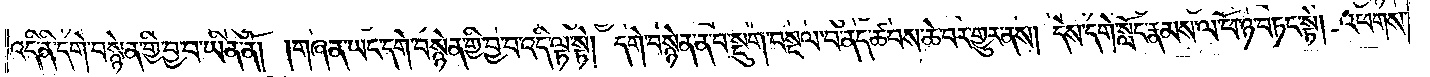འདི་ནི་དགེ་བསྙེན་གྱི་བྱ་བ་ཡིན་ནོ། །གཞན་ཡང་དགེ་བསྙེན་གྱི་བྱ་བ་འདི་ལྟ་སྟེ། དགེ་བསྙེན་ན་བ་སྡུག་བསྔལ་བ་ནད་ཚབས་ཆེ་བར་གྱུར་ནས། དེས་དགེ་སློང་རྣམས་ལ་ཕོ་ཉ་བཏང་སྟེ། འཕགས་
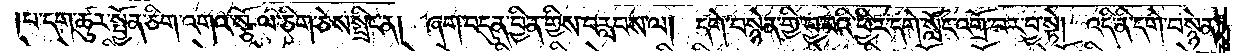པ་དག་ཚུར་སྤྱོན་ཅིག་འགའ་སྩོལ་ཅིག་ཅེས་སྤྲིང་ན། ཞག་བདུན་བྱིན་གྱིས་བརླབས་ལ། དགེ་བསྙེན་གྱི་བྱ་བའི་ཕྱིར་དགེ་སློང་འགྲོ་བར་བྱ་སྟེ། འདི་ནི་དགེ་བསྙེན་
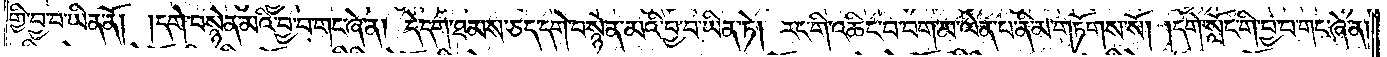གྱི་བྱ་བ་ཡིན་ནོ། །དགེ་བསྙེན་མའི་བྱ་བ་གང་ཞེ་ན། དེ་དག་ཐམས་ཅད་དགེ་བསྙེན་མའི་བྱ་བ་ཡིན་ཏེ། རང་གི་འཆིང་བ་བག་མ་ལེན་པ་ནི་མ་གཏོགས་སོ། །དགེ་སློང་གི་བྱ་བ་གང་ཞེ་ན།
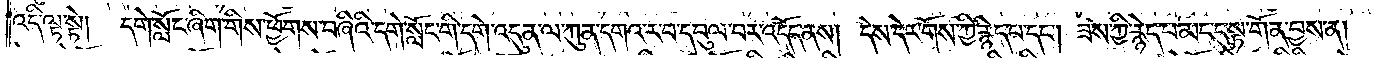འདི་ལྟ་སྟེ། དགེ་སློང་ཞིག་གིས་ཕྱོགས་བཞིའི་དགེ་སློང་གི་དགེ་འདུན་ལ་ཀུན་དགའ་ར་བ་དབུལ་བར་འདོད་ནས། དེས་དེར་གོས་ཀྱི་རྙེད་པ་དང༌། ཟས་ཀྱི་རྙེད་པ་མང་དུ་སྟ་གོན་བྱས་ན།
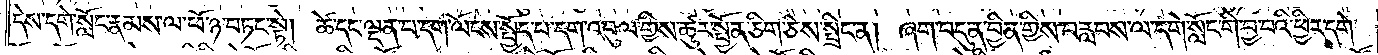དེས་དགེ་སློང་རྣམས་ལ་ཕོ་ཉ་བཏང་སྟེ། ཚེ་དང་ལྡན་པ་དག་ལོངས་སྤྱོད་པ་དག་འབུལ་གྱིས་ཚུར་སྤྱོན་ཅིག་ཅེས་སྤྲིང་ན། ཞག་བདུན་བྱིན་གྱིས་བརླབས་ལ་དགེ་སློང་གི་བྱ་བའི་ཕྱིར་དགེ་
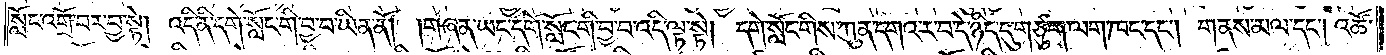སློང་འགྲོ་བར་བྱ་སྟེ། འདི་ནི་དགེ་སློང་གི་བྱ་བ་ཡིན་ནོ། །གཞན་ཡང་དགེ་སློང་གི་བྱ་བ་འདི་ལྟ་སྟེ། དགེ་སློང་གིས་ཀུན་དགའ་ར་བ་དེ་ཉིད་དུ་གཙུག་ལག་ཁང་དང༌། གནས་མལ་དང༌། འཚོ་
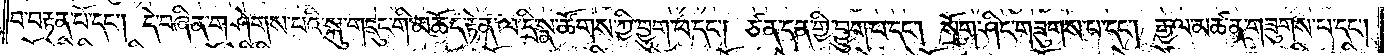བ་བརྟན་པོ་དང༌། དེ་བཞིན་གཤེགས་པའི་སྐུ་གདུང་གི་མཆོད་རྟེན་ལ་དྲི་སྣ་ཚོགས་ཀྱི་བྱུག་པ་དང༌། ཙན་དན་གྱི་བྱུག་པ་དང༌། སྲོག་ཤིང་གཟུགས་པ་དང༌། རྒྱལ་མཚན་གཟུགས་པ་དང༌།
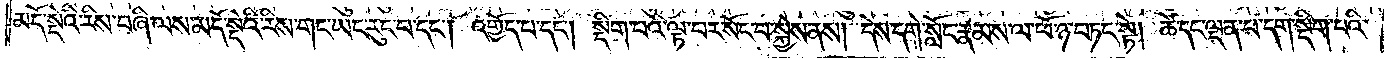མདོ་སྡེའི་རིས་བཞི་ལས་མདོ་སྡེའི་རིས་གང་ཡང་རུང་བ་དང༌། འགྱོད་པ་དང༌། སྡིག་པའི་ལྟ་བར་སོང་བ་སྐྱེས་ནས། དེས་དགེ་སློང་རྣམས་ལ་ཕོ་ཉ་བཏང་སྟེ། ཚེ་དང་ལྡན་པ་དག་སྡིག་པའི་
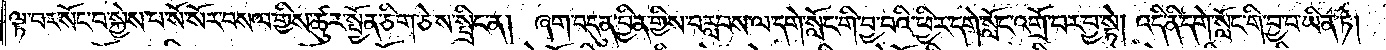ལྟ་བར་སོང་བ་སྐྱེས་པ་སོ་སོར་བསལ་གྱིས་ཚུར་སྤྱོན་ཅིག་ཅེས་སྤྲིང་ན། ཞག་བདུན་བྱིན་གྱིས་བརླབས་ལ་དགེ་སློང་གི་བྱ་བའི་ཕྱིར་དགེ་སློང་འགྲོ་བར་བྱ་སྟེ། འདི་ནི་དགེ་སློང་གི་བྱ་བ་ཡིན་ཏེ།
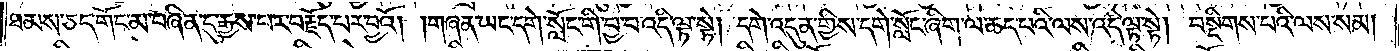ཐམས་ཅད་གོང་མ་བཞིན་དུ་རྒྱས་པར་བརྗོད་པར་བྱའོ། །གཞན་ཡང་དགེ་སློང་གི་བྱ་བ་འདི་ལྟ་སྟེ། དགེ་འདུན་གྱིས་དགེ་སློང་ཞིག་ལ་ཆད་པའི་ལས་འདི་ལྟ་སྟེ། བསྡིགས་པའི་ལས་སམ།
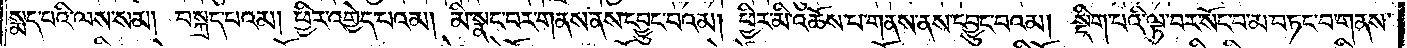སྨད་པའི་ལས་སམ། བསྐྲད་པའམ། ཕྱིར་འགྱེད་པའམ། མི་སྣང་བར་གནས་ནས་དབྱུང་བའམ། ཕྱིར་མི་འཆོས་པ་གནས་ནས་དབྱུང་བའམ། སྡིག་པའི་ལྟ་བར་སོང་བ་མ་བཏང་བ་གནས་
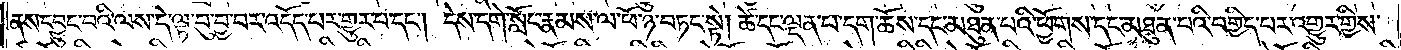ནས་དབྱུང་བའི་ལས་དེ་ལྟ་བུ་བྱ་བར་འདོད་པར་གྱུར་པ་དང༌། དེས་དགེ་སློང་རྣམས་ལ་ཕོ་ཉ་བཏང་སྟེ། ཚེ་དང་ལྡན་པ་དག་ཆོས་དང་མཐུན་པའི་ཕྱོགས་དང་མཐུན་པའི་བགྱིད་པར་འགྱུར་གྱིས་
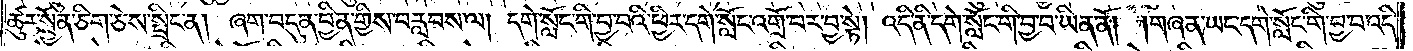ཚུར་སྤྱོན་ཅིག་ཅེས་སྤྲིང་ན། ཞག་བདུན་བྱིན་གྱིས་བརླབས་ལ། དགེ་སློང་གི་བྱ་བའི་ཕྱིར་དགེ་སློང་འགྲོ་བར་བྱ་སྟེ། འདི་ནི་དགེ་སློང་གི་བྱ་བ་ཡིན་ནོ། །གཞན་ཡང་དགེ་སློང་གི་བྱ་བ་འདི་
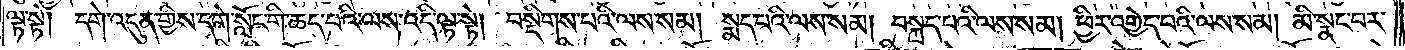ལྟ་སྟེ། དགེ་འདུན་གྱིས་དགེ་སློང་གི་ཆད་པའི་ལས་འདི་ལྟ་སྟེ། བསྡིགས་པའི་ལས་སམ། སྨད་པའི་ལས་སམ། བསྐྲད་པའི་ལས་སམ། ཕྱིར་འགྱེད་པའི་ལས་སམ། མི་སྣང་བར་
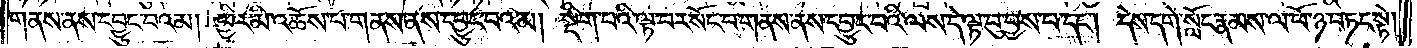གནས་ནས་དབྱུང་བའམ། ཕྱིར་མི་འཆོས་པ་གནས་ནས་དབྱུང་བའམ། སྡིག་པའི་ལྟ་བར་སོང་བ་གནས་ནས་དབྱུང་བའི་ལས་དེ་ལྟ་བུ་བྱས་པ་དང༌། དེས་དགེ་སློང་རྣམས་ལ་ཕོ་ཉ་བཏང་སྟེ།
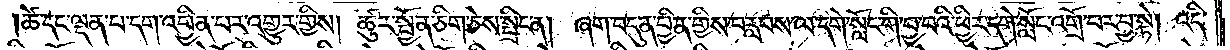ཚེ་དང་ལྡན་པ་དག་འབྱིན་པར་འགྱུར་གྱིས། ཚུར་སྤྱོན་ཅིག་ཅེས་སྤྲིང་ན། ཞག་བདུན་བྱིན་གྱིས་བརླབས་ལ་དགེ་སློང་གི་བྱ་བའི་ཕྱིར་དགེ་སློང་འགྲོ་བར་བྱ་སྟེ། འདི་
